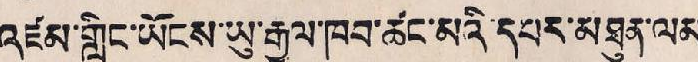འཛམ་གླིང་ཡོངས་ཡུ་རྒྱལ་ཁབ་ཚང་མའི་དབར་མཐུན་ལམ་
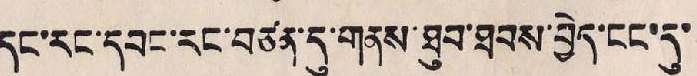དང་རང་དབང་རང་བཙན་དུ་གནས་ཐུབ་ཐབས་བྱེད་ངང་དུ་
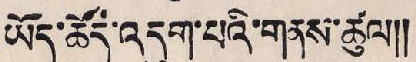ཡོད་ཚོད་འདུག་པའི་གནས་ཚུལ།།
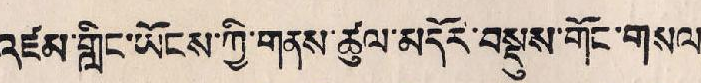འཛམ་གླིང་ཡོངས་ཀྱི་གནས་ཚུལ་མདོར་བསྡུས་གོང་གསལ་
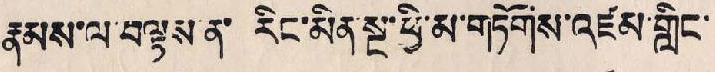རྣམས་ལ་བལྟས་ན་ རིང་མིན་སྔ་ཕྱི་མ་གཏོགས་འཛམ་གླིང་
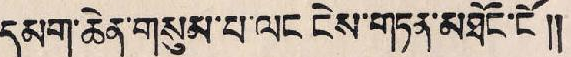དམག་ཆེན་གསུམ་པ་ལང་ངེས་གཏན་མཐོང་ངོ།།
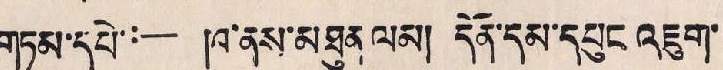གཏམ་དཔེ:— ཁ་ནས་མཐུན་ལམ། དོན་དམ་དཔུང་འཇུག་
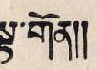སྟ་གོན།།
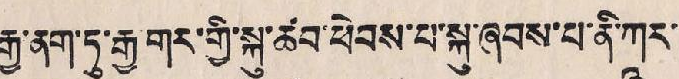རྒྱ་ནག་ཏུ་རྒྱ་གར་གྱི་སྐུ་ཚབ་ཕེབས་པ་སྐུ་ཞབས་པ་ནི་ཀཱར་
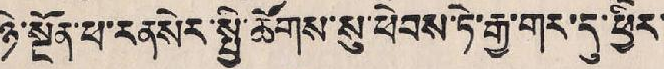ཉེ་སྔོན་ཕ་རནསེར་སྤྱི་ཚོགས་སུ་ཕེབས་ཏེ་རྒྱ་གར་དུ་ཕྱིར་
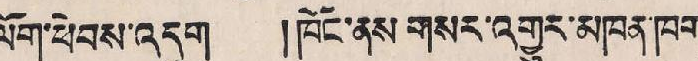ལོགས་ཕེབས་འདུག །ཁོང་ནས གསར་འགྱུར་མཁན་ཁག་
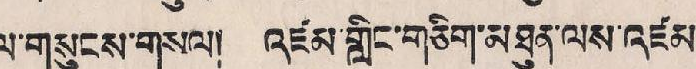ལ་གསུངས་གསལ། འཛམ་གླིང་གཅིག་མཐུན་ལས་འཛམ་
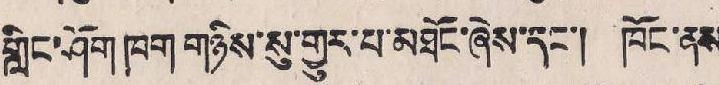གླིང་ཤོག ཁག གཉིས་སུ་གྱུར་པ་མཐོང་ཞེས་དང། ཁོང་ནས་
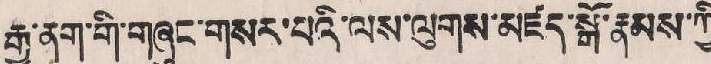རྒྱ་ནག་གི་གཞུང་གསར་པའི་ལས་ལུགས་མཛད་སྒོ་རྣམས་ཀྱི་
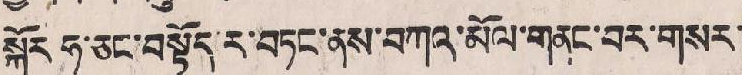སྐོར ཧ་ཅང་བསྟོད་ར་བཏང་ནས་བཀའ་མོལ་གནང་བར་གསར་
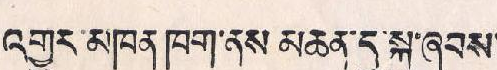འགྱུར་མཁན ཁག་ནས མཆན་དུ་སྐུ་ཞབས་
